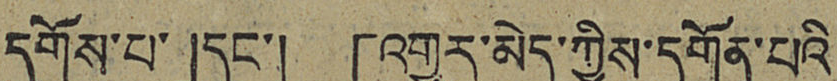དགོས་པ་」དང་། 「འགྱུར་མེད་ཀྱིས་དགོན་པའི་
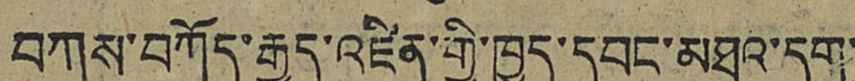བཀས་བཀོད་རྒྱུད་འཛིན་གྱི་ཁྱད་དབང་མཐའ་དག་
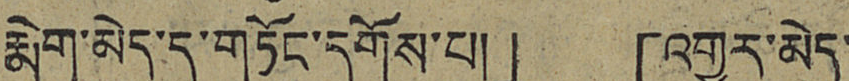རྨེག་མེད་དུ་གཏོང་དགོས་པ།」 「འགྱུར་མེད་
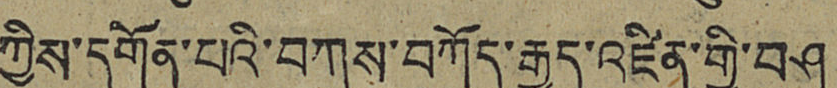ཀྱིས་དགོན་པའི་བཀས་བཀོད་རྒྱུད་འཛིན་གྱི་བཤུ་
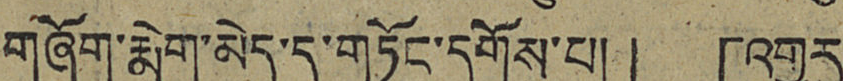གཞོག་རྨེག་མེད་དུ་གཏོང་དགོས་པ།」 「འགྱུར་
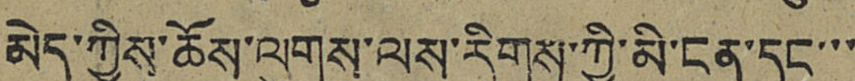མེད་ཀྱིས་ཆོས་ལུགས་ལས་རིགས་ཀྱི་མི་ངན་དང་་་
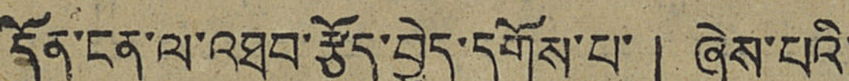དོན་ངན་ལ་འཐབ་རྩོད་བྱེད་དགོས་པ་」 ཞེས་པའི་
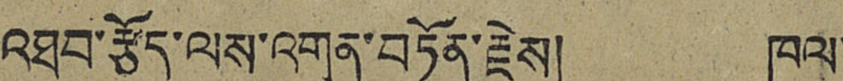འཐབ་རྩོད་ལས་འགན་བཏོང་རྗེས། ཁུལ་
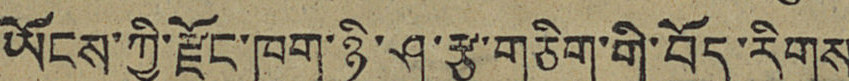ཡོངས་ཀྱི་རྫོང་ཁག་ཉི་ཤུ་རྩ་གཅིག་གི་བོད་རིགས
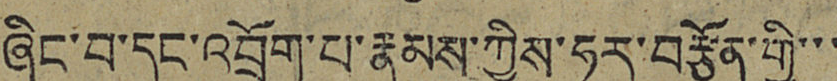ཞིང་བ་དང་འབྲོག་པ་རྣམས་ཀྱིས་ཧུར་བརྩོན་གྱི་་་
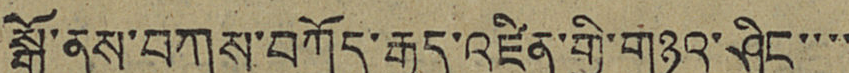སྒོ་ནས་བཀས་བཀོད་རྒྱུད་འཛིན་གྱི་གཉའ་ཤིང་་་་
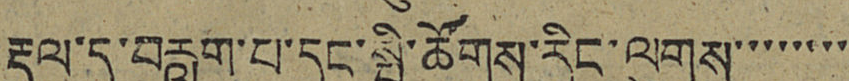རྡུལ་དུ་བརླག་པ་དང་སྤྱི་ཚོགས་རིང་ལུགས་་་་་་་་
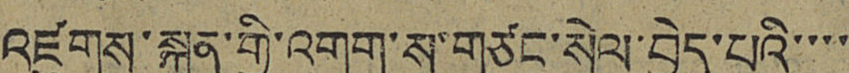འཛུགས་སྐྲུན་གྱི་འགག་ས་གཙང་སེལ་བྱེད་པའི་་་་
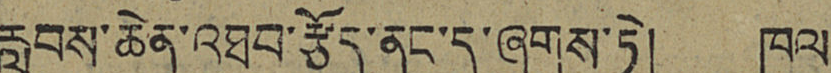རླབས་ཆེན་འཐབ་རྩོད་ནང་དུ་ཞུགས་ཏེ། ཁུལ་
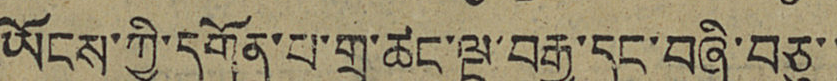ཡོངས་ཀྱི་དགོན་པ་གྲྭ་ཚང་ལྔ་བརྒྱ་དང་བཞི་བཅུ་་
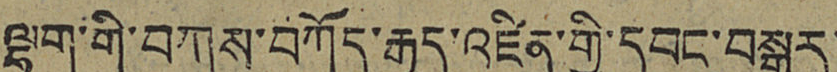ལྷག་གི་བཀས་བཀོད་རྒྱུད་འཛིན་གྱི་དབང་བསྒྱུར་
